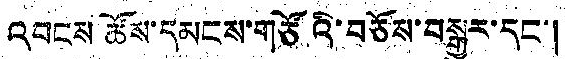འབངས ཚོས་དམངས་གཙོའི་བཅོས་བསྒྱུར་དང་།
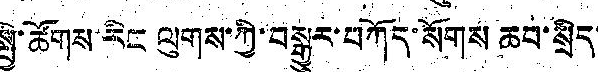སྤྱི་ཚོགས་རིང ལུགས་ཀྱི་བསྒྱུར་བཀོད་སོགས ཆབ་སྲིད་
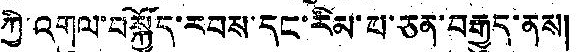ཀྱི་འགུལ་བསྐྱོད་རབས་དང་རིམ་པ་ཅན་བརྒྱུད་ནས།
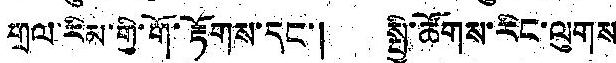གྲལ་རིམ་གྱི་གོ་རྟོགས་དང་། སྤྱི་ཚོགས་རིང་ལུགས
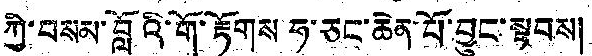ཀྱི་བསམ་བློའི་གོ་རྟོགས ཧ་ཅང་ཆེན་པོ་བྱུང་སྟབས།
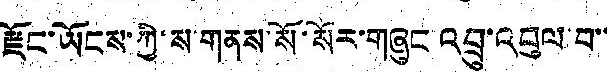རྫོང་ཡོངས་ཀྱི་ས་གནས་སོ་སོར་གཞུང འབྲུ་འབུལ་བ་་
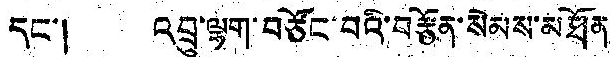དང་། འབྲུ་ལྷག་བཙོང་བའི་བརྩོན་སེམས་མཐོན་
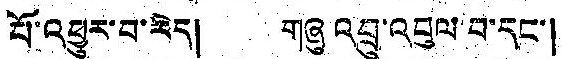པོ་འཕྱུར་བ་རེད། གཞུ འབྲུ་འབུལ་བ་དང་།
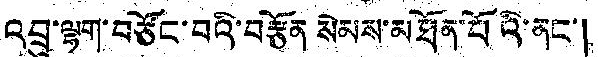འབྲུ་ལྷག་བཙོང་བའི་བརྩོན སེམས་མཐོན་པོའི་ནང་།
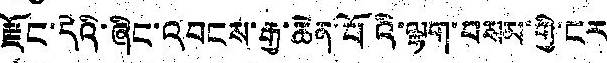རྫོང་དེའི་ཞིང་འབངས་རྒྱ་ཆེན་པོའི་ལྷག་བསམ་གྱི་ངར
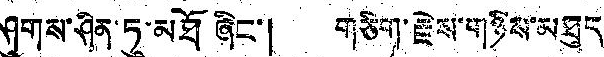ཤུགས་ཤིན་ཏུ་མཐོ ཞིང་། གཅིག་རྗེས་གཉིས་མཐུད
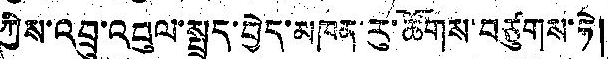ཀྱིས་འབྲུ་འབུལ་སྤྲད་བྱེད་མཁན་རུ་ཚོགས་བཙུགས་ཏེ།
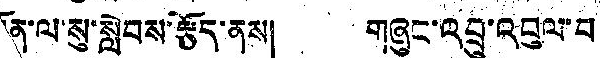དོན་ལ་སུ་སླེབས་རྩོད་ནས། གཞུང་འབྲུ་འབུལ་བ་
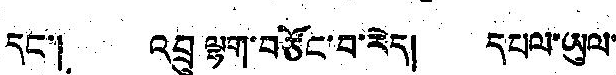དང་། འབྲུ ལྷག་བཙོང་བ་རེད། དཔལ་ཡུལ་
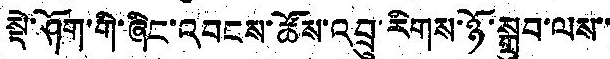སྡེ་ཤོག་གི་ཞིང་འབངས་ཚོས་འབྲུ་རིགས་ཉོ་སྒྲུབ་ལས་་
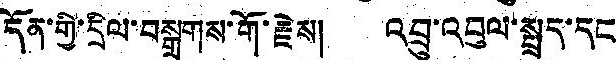དོན་གྱི་དྲིལ་བསྒྲགས་གོ་རྗེས། འབྲུ་འབུལ་སྤྲད་དང
